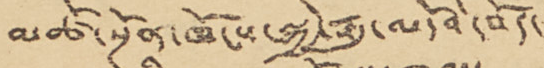མཚོ་སྔོན་ཁོངས་སྐྱེ་རྒུ་མདོའི་བོ་
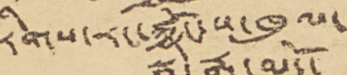རིགས་རང་སྐྱོང་ས་ཁུལ་
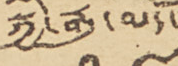སྐྱི་རྒུ་མདོ་
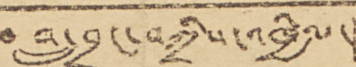བླ་བྲང་བཀྲིས་འཁྱིལ་།
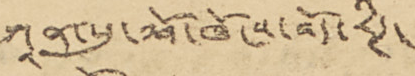ཀཱན་སུ་ཤོ་ཁོངས་བོད་རིཊ་
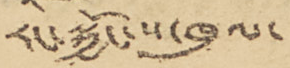རང་སྐྱོང་ས་ཁུལ་
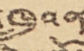སི་ཁྲུའན་
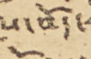ཁོངས་བོད་རིཊ་
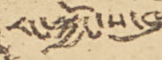རང་སྐྱོང་ས་ཁུལ་
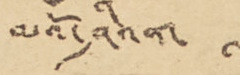མའོ་ཤིའན་
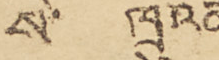སི་ ཁྲུའན
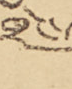ཁྲེང་ཏུ་
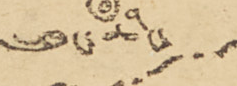ཁྲུང་ཆིང་
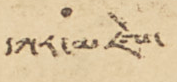དཀར་མཛེས་
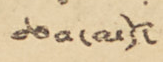ཆབ་མདོ་
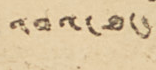འབའ་ཐང་
